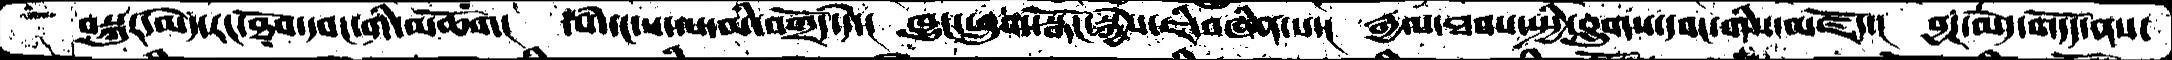བསྐུར་མེད་རང་ཐོབ་དབང་གི་མཆོག།    དགེ་དང་ས་ལ་མི་བགྲོད་དེ་།  ཁྱུང་ཕྲུག་སྒོང་སྐྱེས་ཇི་བཞིན་པ་།  རྒྱལ་ཐབས་སྤྱི་བླུགས་དབང་གིས་མཛོད་།  བྱར་མེད་གདོད་ནས་
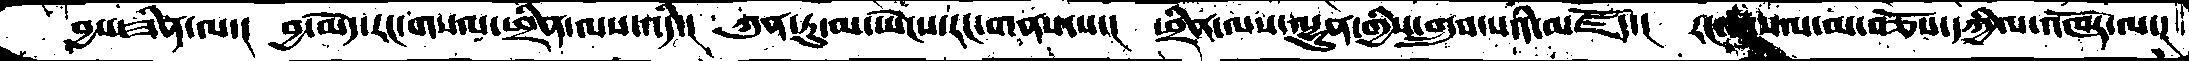བྱས་ཟིན་ལ་།  བྱ་མེད་རང་གསལ་ཕྲིན་ལས་འདི་།   ཀུན་ཏུ་མ་ཡེངས་རང་གནས་པ་།  ཕྲིན་ལས་ལྷུན་གྱིས་གྲུབ་པའི་མཛོད་།  རང་གསལ་མ་བཅོས་དཀྱིལ་འཁོར་ལ་།
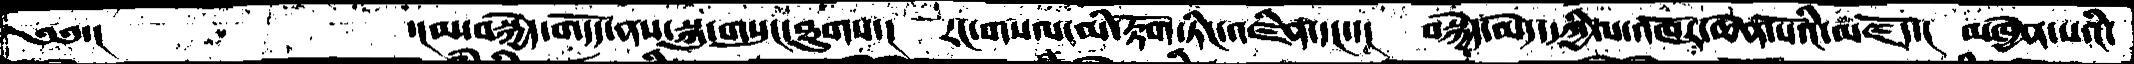༄༅་།         ་།མ་བསྐྱེད་གདོད་ནས་སྐུ་གསུང་ཐུགས་།  རང་གསལ་མི་རྟོག་ཏིང་འཛིན་དང་་།  བསྐྱེད་མེད་དཀྱིལ་འཁོར་ཆེན་པོའི་མཛོད་།  མཁྱེན་པའི་
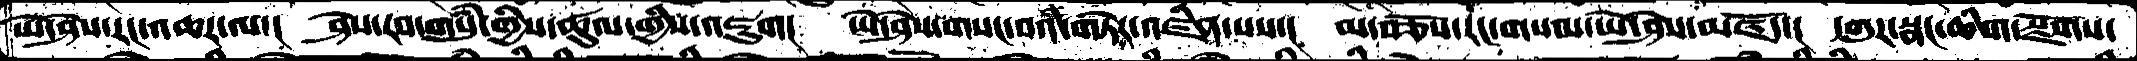ཡེ་ཤེས་རང་འཆར་ལ་།  ཤེས་རབ་གསུཾ་གྱིས་ཚུལ་གྱིས་འཇུག།  ཡེ་ཤེས་གསང་བའི་གཏེར་འཛིན་པས་།  མ་བཅོས་རང་གསལ་ཡེ་ཤེས་མཛོད་།  དགུར་སྣང་ཆིག་སྫོགས་
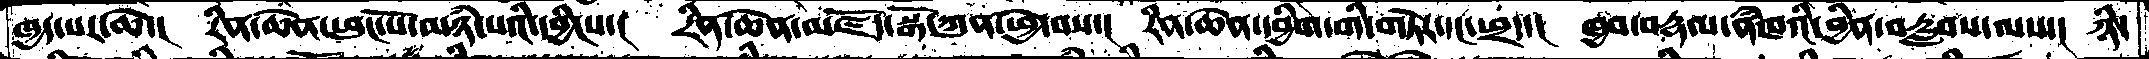ཁྱད་པར་ཆེ་།  རིན་ཆེན་ཕུང་པོ་མཉཾ་པའི་དབྱིངས་།  རིན་ཆེན་མཛོད་སྒོ་ཀུན་ཕྱེ་བས་།  རིན་ཆེན་དབྱིག་གི་གཏེར་དང་ཕྲད་།  ཁྱབ་བརྡལ་ནཾཁའི་བྱིན་བརླབས་ལས་།   ཉི་
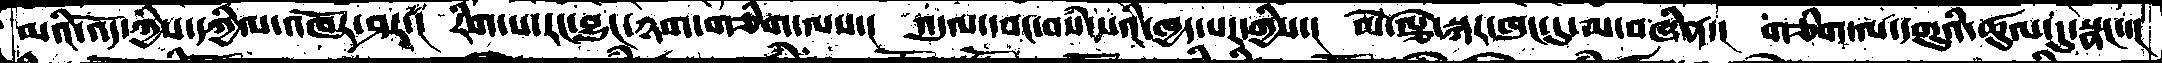མའི་འོད་ཀྱིས་དཀྱིལ་འཁོར་ཤར་།  རིག་པ་རང་བྱུང་ཉག་གཅིག་ལས་།  འདུལ་དབང་བསཾ་པའི་ཁྱད་པར་གྱིས་།  མེ་ལྕེ་སྐར་ཁུང་དུ་མ་བཞིན་།  གཅིག་ལ་དགུའི་ཚུལ་དུ་སྣང་་།
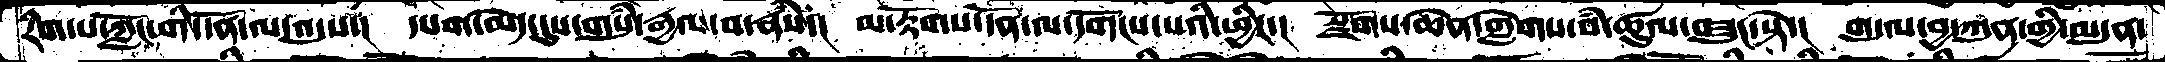རིག་པ་ཀློང་གི་དོན་ལ་འདུས་།  དཔག་མེད་དུས་གསུཾ་རྒྱལ་བ་རྣཾས་།  མ་རྟོགས་དོན་ལ་དགོངས་པའི་ཕྱིར་།  སྫོགས་ཆེན་གླེགས་བཾ་ཚུལ་བཟུང་སྟེ་།  གདུལ་བྱ་ཀུན་གྱི་མདུན་
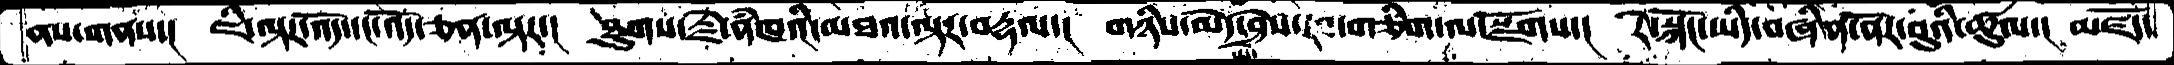ནས་གནས་།   ཇི་ལྟར་འདོ་དང་འོད་ཅན་ལྟར་།  ཐུགས་རྗེ་ནཾཁའི་མཐའ་ལྟར་བརྡལ་།  གཉིས་མེད་ཤེས་རབ་གཅིག་ལ་སྫོགས་།  རེ་སྐོང་ཡིད་བཞིན་ནོར་བུའི་ཚུལ་།  མཛོད་
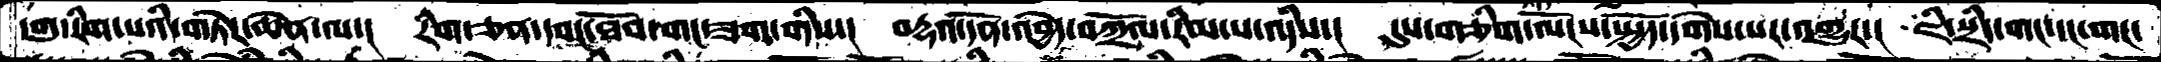དགུ་རིག་པའི་གཏེར་ཆེན་ལ་།  རིག་ཅན་དབང་ཐོབ་གང་ཟག་གིས་།  བརྡའ་དོན་འབྱེད་བཀྲོལ་རིམ་པ་འདིས་།  དུས་གཅིག་ལོངས་སྤྱོད་དགེས་པར་འགྱུར་།  ཇི་སྲིད་གང་དང་གང་
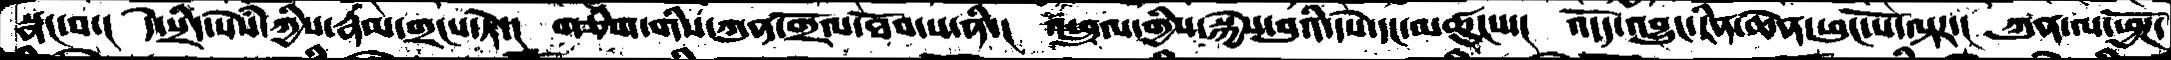སྣང་བ་།  དེ་སྲིད་སེཾས་ཀྱིས་རྣམ་གྲངས་ཏེ་།  གཅིག་གིས་ཀུན་གྲོལ་ཐོབ་པ་ནི་།  འཕྲུལ་གྱིས་སྐྱེས་བུའི་དཔེ་དང་མཚུངས་་།  འདོད་འབྱུང་རིན་ཆེན་ཕུང་པོ་ལྟར་།  ཀུན་ལ་ཕྱོཌ་
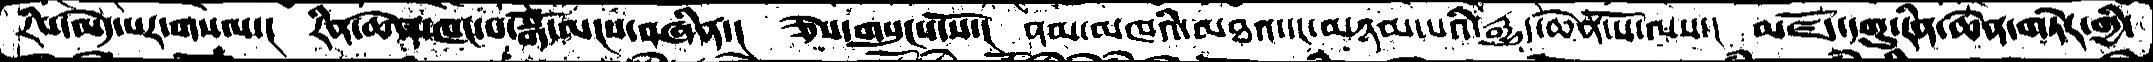རིས་མེད་པར་གསལ་།  རིན་ཆེན་ཁང་པ་སྒོ་མངས་བཞིན་།  ཅེས་གསུངས་སོ་།  ནམ་མཁའི་མཐའ་དང་མཉམ་པའི་རྒྱུད་ཆེན་པོ་ལས་།  མཛོད་དགུ་རིན་ཆེན་གཏེར་གྱི་
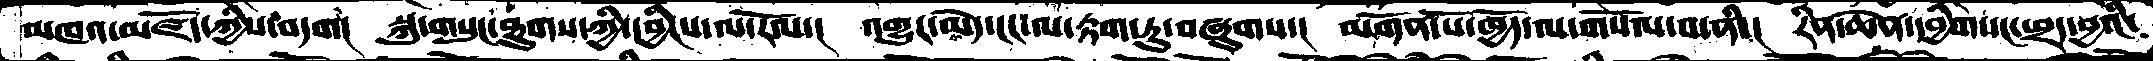མཁའ་མཛོད་ཀྱིས་བདག།  སྐུ་གསུང་ཐུགས་ཀྱི་དབྱིངས་ལ་རོལ་།  འགྱུར་མེད་ངང་ལ་རྟག་ཏུ་བཞུགས་།  མགོན་པོ་ཁྱོད་ལ་གསོལ་བ་ནི་།  རིན་ཆེན་དབྱིག་དང་ཕྲད་བྱའི་
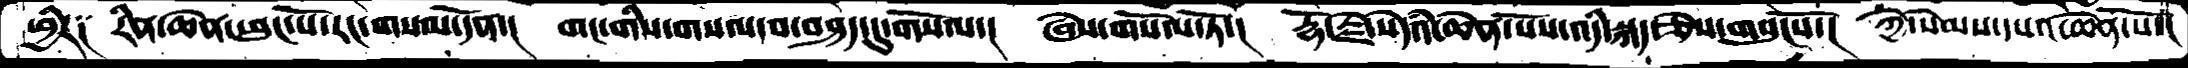ཕྱིར༑   རིན་ཆེན་ཕུང་པོ་རང་གསལ་དོན་།  གང་གིས་གསལ་བ་བཤད་དུ་གསོལ་།  ཞེས་གསོལ་ཏོ་།  རྡོ་རྗེ་སེདའཾ་ཆེན་པོས་འདི་སྐད་ཅེས་གསུངསོ་།  ཀྱེ་སེམས་དཔའ་ཆེན་པོ་།
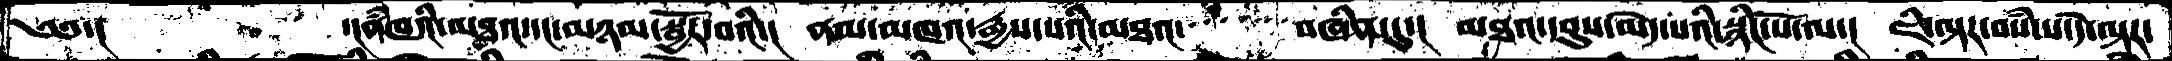༄༅་།          ་།ནཾཁའི་མཐའ་དང་མཉམ་སྦྱོར་བའི་།  ནམ་མཁའ་རྒྱས་པའི་མཐའ་    བཞིན་དུ་།  མཐའ་དབུས་མེད་པའི་སྙིང་པོ་ལ་།  ཇི་ལྟར་བསཾ་པ་དེ་ལྟར་
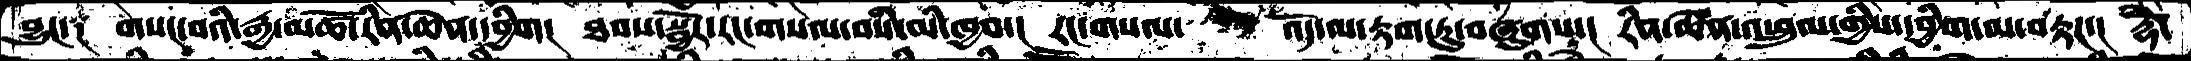བྱུང་༑   གསང་བའི་རྒྱ་མཚོ་རིན་ཆེན་དབྱིག།  ཐབས་སྦྱོར་རང་གསལ་བསཾ་མི་ཁྱབ་།  རང་གསལ་   འོད་ལ་རྟག་ཏུ་བཞུགས་།  རིན་ཆེན་འཕྲུལ་གྱིས་དབྱིག་མ་བརྟཌ་།  རྡོེ་
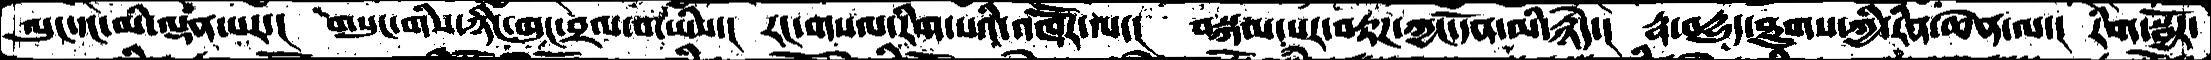ལུང་དང་མི་ལྡན་པར་།  གསུང་གི་ཉིང་ཁུང་བྲལ་བ་ཡིས་།  རང་གསལ་རིག་པའི་འཁཽར་ལ་།  བསྐལ་པར་བརྟཌ་ཀྱང་དོན་མི་རྙེད་།  རྣ་བདྱུད་ཐུགས་ཀྱི་རིན་ཆེན་ལ་།  རིག་སྦྱོར་
